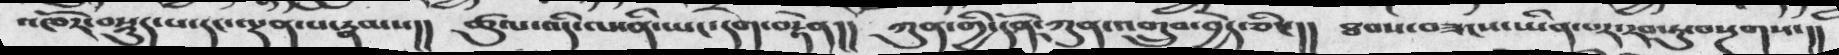འཁོར་བསྡུད་པ་དང་ལྡན་པ་རྣམས།།   ཚུལ་འདི་ལ་ནི་ཡང་དག་བརྟེན།།   ཀུན་གྱི་དོན་ཀུན་འགྲུབ་བྱེད་ཅིང།།   ཐབས་བཟངས་ཡིན་པར་རབ་ཏུ་བསྔགས་།།
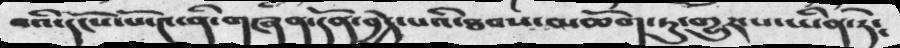བའི་དངོས་པོ་༤་ནི་གཞན་དོན་བྱེད་པའི་ཐབས་མཆོག་ཏུ་གྱུར་པ་ཡིན་ཏེ༴
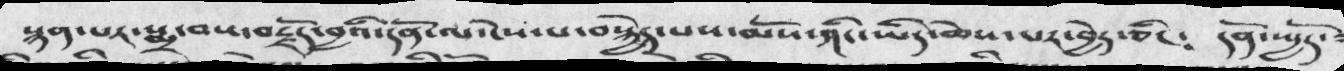སྙན་པར་སྨྲ་བས་བརྗོད་བྱའི་དོན་ལ་ངེས་པ་བསྐྱེད་པས་མོས་ཤིང་ཡིད་ཆེས་པར་བྱེད་ཅིང༴ དོན་སྤྱོད་
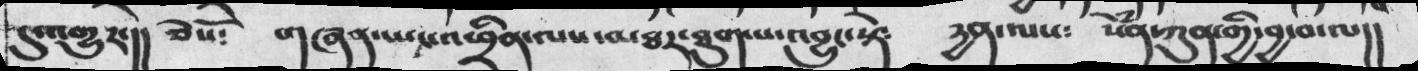དུ་འགྱུར་།། ཅེསོ༴ གཞན་ཡང་འཕྲིན་ལས་མཐར་ཐུག་པ་འབྱུང་སྟེ༴ དྱན་ལས༴ སེཾན་ཀུན་གྱི་བྱ་བ་ལ།།
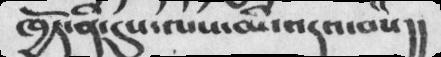ཁྱོད་ནི་དུས་ལས་མི་འདའ་བས།།
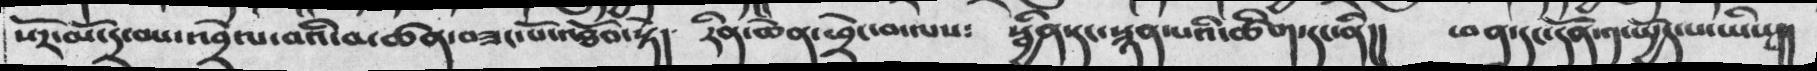སོར་མོ་དྲ་བས་འབྲེལ་བའི་མཚན་བཟང་པོ་འཐོབ་སྟེ།  རིན་ཆེན་ཕྲེང་བ་ལས༴  སྦྱིན་དང་སྙན་པའི་ཚིག་དང་ནི།།  ཕན་དང་དོན་༡་སྤྱོད་པ་ཡིས།།
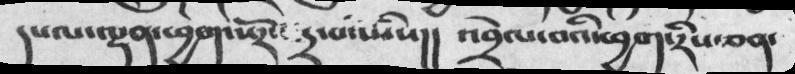དཔལ་ལྡན་ཕྱག་སོར་དྲ་བ་ཡིས།།  འབྲེལ་བའི་ཕྱག་རིས་ཅན་
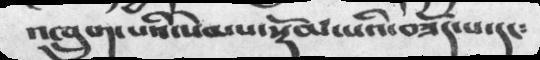འཁྲུག་པའི་སེམས་སྡོམ་པའི་བཟོད་པ་དང༴
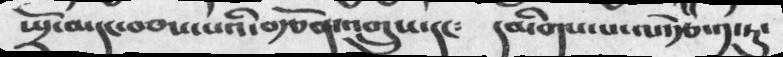སྤྲོ་མདང་བཅས་པའི་བརྩོན་འགྲུས་དང༴ དམིགས་པ་ལ་རྩེ་༡་ཏུ་
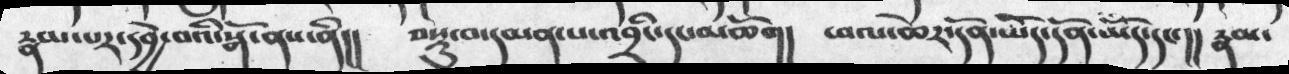རྣམ་པར་དབྱེ་བའི་སྒོ་ནས་ནི།།  བསྡུ་བ་དམན་པ་འབྲིང་དང་མཆོག།  ཕལ་ཆེར་དོན་ཡོད་དོན་ཡོད་དང་།། རྣམ་
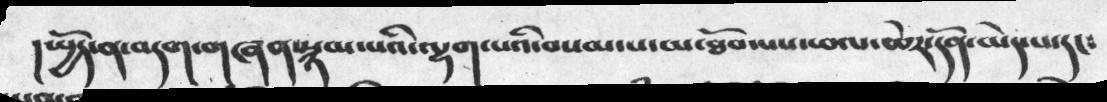།སྤྱོད་ན་བདག་གཞན་སྙམ་པའི་ལྷག་པའི་བསམ་པ་མ་ཐོབ་པས་ཕལ་ཆེར་དོན་མེད་པ་དང༴
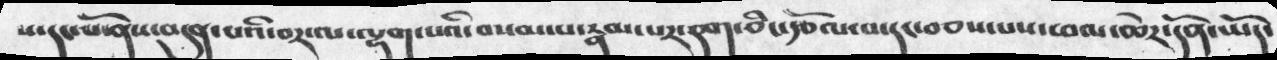ས་དང་པོ་ནས་བདུན་པའི་བར་ལ་ལྷག་པའི་བསམ་པ་རྣམ་པར་དག་ཅིང་རྩོལ་བ་དང་བཅས་པས་ཕལ་ཆེར་དོན་ཡོད་
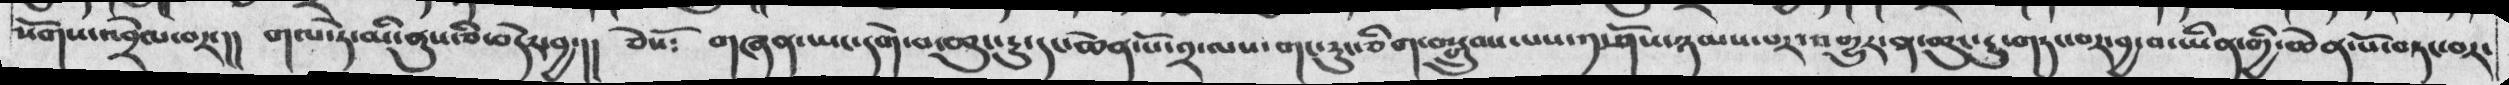སོགས་འབྲེལ་བར་།། གལ་ཏེ་མི་ནུས་ཅི་བདེར་བྱ་།། ཅེསོ༴ གཞན་ཡང་དགེ་བ་ཆུང་ངུ་དང་ཆེན་པོ་༢་ལས་གང་རུང་ཅིག་བསྒྲུབས་པས་༡་ཤོས་ཉམས་པར་འགྱུར་ན་ཆུང་ངུ་གཏང་བར་བྱ་བ་ཡིན་གྱི་ཆེན་པོ་བཏང་བར་
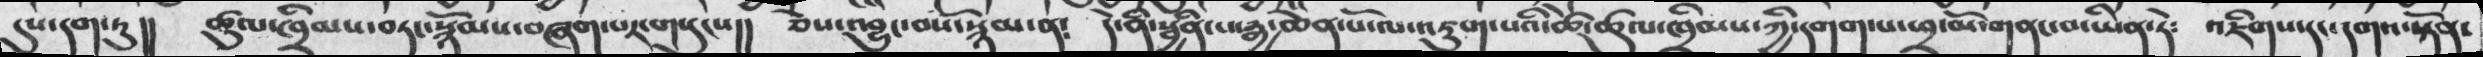དུས་དག་ཏུ།།  ཚུལ་ཁྲིམས་བཏང་སྙོམས་བཞག་པར་གསུངས།།  ཅེས་འབྱུང་བས་སྙམ་ན༴  དེ་ནི་སྦྱིན་པ་རྒྱ་ཆེན་པོ་ལ་འཇུག་པའི་ཚེ་ཚུལ་ཁྲིམས་ཀྱི་དགག་པ་ཕྲ་མོ་གནང་བ་ཡིན་ཏེ༴  འཇིགས་དང་དགའ་སྟོན་
